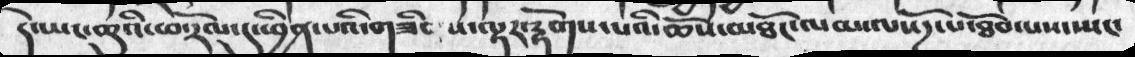དེ་ཡང་ཆུའི་ཕ་རོལ་དུ་ཕྱིན་པའི་གཟིག ས་ལྟར་རྟོགས་པའི་ཆོས་མཐོང་ལམ་ལསོཌ་པ་ཐོབ་པས་ཡང་
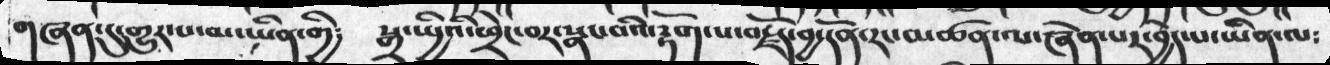གཞན་དུ་གྱུར་པ་མ་ཡིན་གྱི༴  སྒྲ་སྤྱའི་ཕྲེང་བར་སྣང་བའི་རྟོགས་པ་བརྗོད་བྱ་དོན་རང་མཚན་ལ་ཞེན་པར་བྱེད་པ་ཡིན་ལ༴
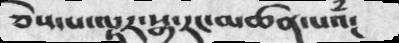ཅེས་པ་ལྟར་སྒྲ་རང་མཚན་པའཾ༴
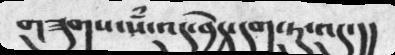གཟུགས་སཾ་འདུ་བྱེད་དག་ཏུ་འདུ་།།
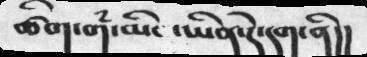ཚིག་གཾ་མིང་ཡིན་དེ་དག་ནི།།
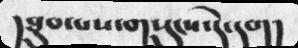།ཐུབ་པས་གསུངས་དེ་དག།
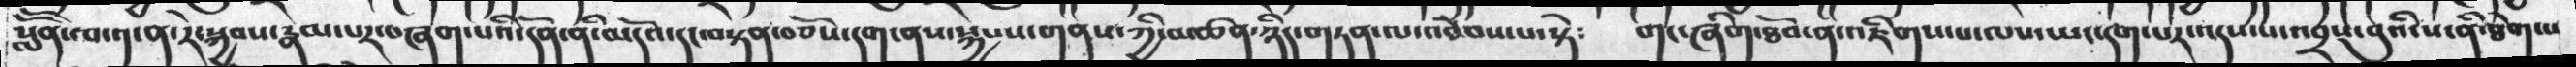སློོན་ལ་༡་ན་རེ་སྐྱབས་རྣམ་པར་བཞག་པའི་དོན་ནི་མདོའ་དང་བསྟན་བཅོས་དག་ནས་སྐྱབས་གནས་ཀྱི་མཚན་ཉིད་གཏན་ལ་འབེབས་པ་སྟེ༴  གང་ཞིག་ཐོབ་ན་འཇིགས་པ་ལས་ཡང་དག་པར་འདས་པ་འབྲས་བུའི་ས་ནི་ཐེག་པ་
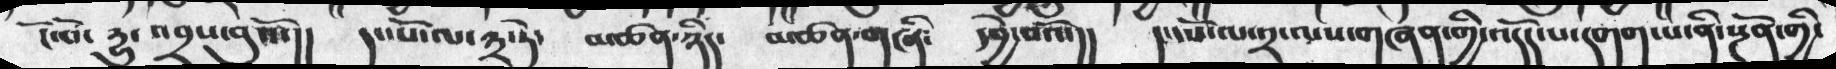ངོ་བོ་ རྱུ་འབྲས་བུའོ་།།  དང་པོ་ལ་༣་ཏེ་  མཚན་ཉིད་  མཚན་གཞི༴  དབྱེ་བའོ་།།  དང་པོ་ལ་༢་ལས་གཞན་གྱི་འདོད་པ་དགག་པ་ནི་སྔོན་གྱི་
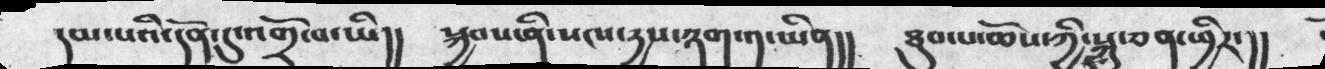དམ་པའི་དོན་དུ་འགྲོ་བ་ཡི།།  སྐྱབས་ནི་སངས་དྱས་ཉག་༡་ཡིན།།  ཐུབ་པ་ཆོས་ཀྱི་སྐུ་ཅན་ཕྱིར་།།
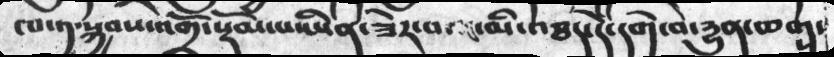ཁ་༡་སྐྱབས་འགྲོ་སྡོམ་པ་ཡིན་ཟེར་བའང་མི་འཐད་དེ་དགེ་བ་རྱུན་ཆག་
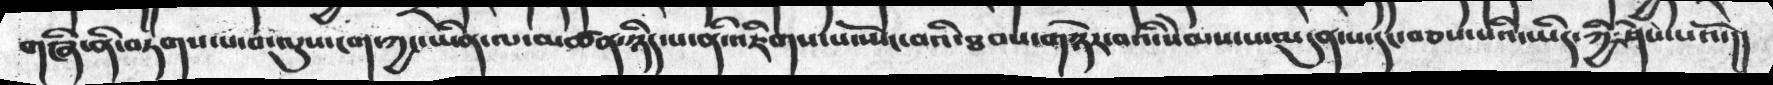གཞི་ནི་བཏགས་པ་བ་ལུས་ངག་ཀྱང་ཡིན་ལ་མཚན་ཉིད་པ་ནི་འཇིགས་པ་ཡོང་བའི་ཐབས་གཉེར་བའི་སེམས་པ་མདུན་པ་དང་བཅས་པའི་ཡིད་ཀྱི་ཤེས་པའོ་།།
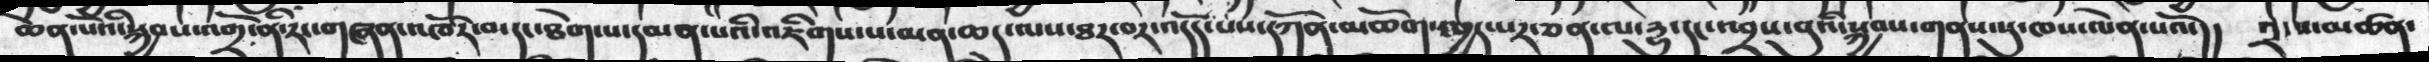ཆེན་པོའི་སྐྱབས་འགྲོ་ནི་རང་གཞན་འཁོར་བ་དང་ཐེག་པ་དམན་པའི་འཇིགས་པ་མན་ཆད་ལས་ཐར་བར་འདོད་པས་དཀོན་མཆོག་ཁྱད་པར་ཅན་ལ་རྱུ་དང་འབྲས་བུའི་སྐྱབས་གནས་སུ་ཁས་ལེན་པའོ་།།  ༢་པ་མཚན་
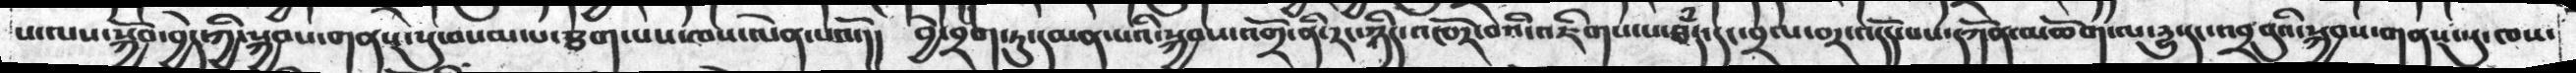པ་ལས་སྐྱོབ་བྱེད་ཀྱི་སྐྱབས་གནས་སུ་བསམས་པ་ཐག་པས་ཁས་ལེན་པའོ་།།  བྱེ་བྲག་ཏུ་དམན་པའི་སྐྱབས་འགྲོ་ནི་རང་ཉིད་འཁོར་བའི་འཇིགས་པ་ཐཾད་དང་བྲལ་བར་འདོད་པས་དཀོན་མཆོག་ལ་རྱུ་དང་འབྲབུའི་སྐྱབས་གནས་སུ་ཁས་
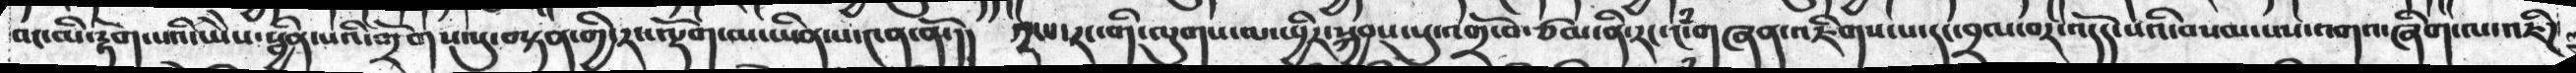བང་མི་རྟོག་པའི་ཡེེས་སྦྱིན་པའི་གྲོགས་སུ་བསྟན་གྱི་རང་ལྡོག་མ་ཡིན་པ་༤ན་ནོ་།།  ༢་པ་རང་གི་ལུགས་ལ་སྤྱིར་སྐྱབས་སུ་འགྲོ་བ་ཙམ་ནི་རང་ངཾ་གཞན་འཇིགས་པ་དང་བྲལ་བར་འདོད་པའི་བསམ་་ལ་འགའ་ཞིག་ལ་འཇིཌ༴
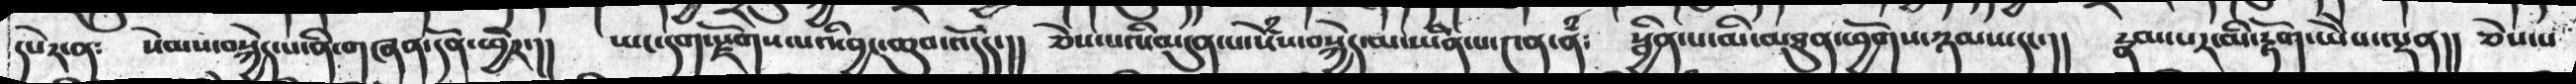དཔེར་ན༴  སེམས་བསྐྱེད་པ་ནི་གཞན་དོན་ཕྱིར་།།   ཡང་དག་རྫོགས་པའི་བྱང་ཆུབ་འདོད་།།  ཅེས་པའི་མདུན་པ་སེཾས་བསྐྱེད་མ་ཡིན་པ་༤ན་ནཾ༴  སྦྱིན་པ་མི་མཐུན་ཕྱོགས་ཉམས་དང་།།  རྣམ་པར་མི་རྟོག་ཡེེས་ལྡན།།  ཅེས་པ
